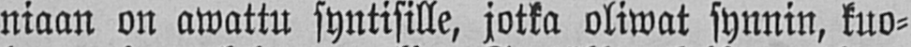niaan on awattu syntisille, jotka oliwat synnin, kuo-
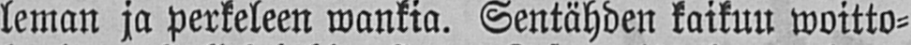leman ja perkeleen wankia. Sentähden kaikuu woitto-
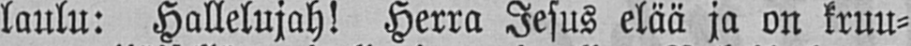laulu: Hallelujah! Herra Jesus elää ja on kruu-
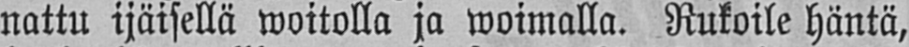nattu ijäisellä woitolla ja woimalla. Rukoile häntä,
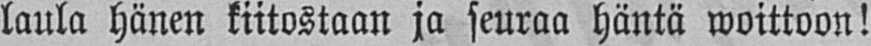laula hänen kiitostaan ja seuraa häntä woittoon!
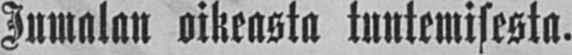Jumalan oikeasta tuntemisesta.
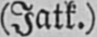(Jatk.)
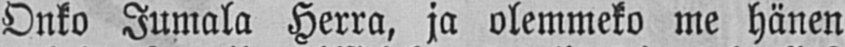Onko Jumala Herra, ja olemmeko me hänen
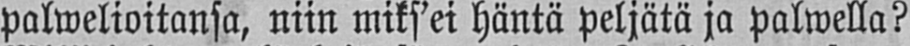palwelioitansa, niin miks'ei häntä peljätä ja palwella?
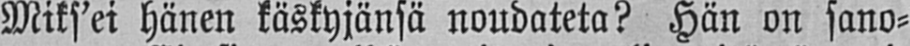Miks'ei hänen käskyjänsä noudateta? Hän on sano-
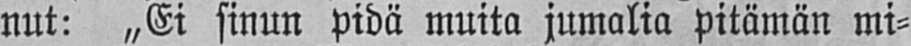nut: „Ei sinun pidä muita jumalia pitämän mi-
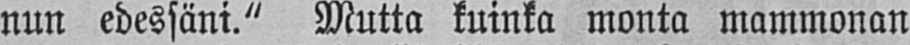nun edessäni." Mutta kuinka monta mammonan
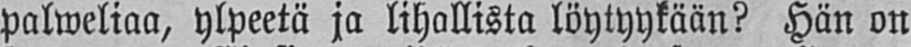palweliaa, ylpeetä ja lihallista löytyykään? Hän on
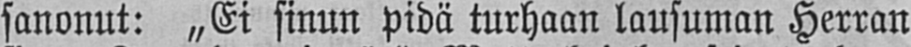sanonut: „Ei sinun Pidä turhaan lausuman Herran
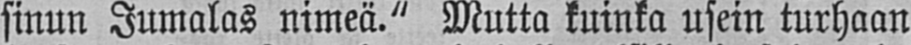sinun Jumalas nimeä." Mutta kuinka usein turhaan
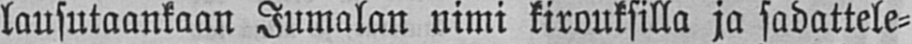lausutaankaan Jumalan nimi kirouksilla ja sadattele-
